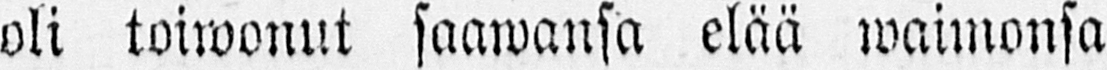oli toiwonut saawansa elää waimonsa
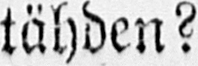tähden?
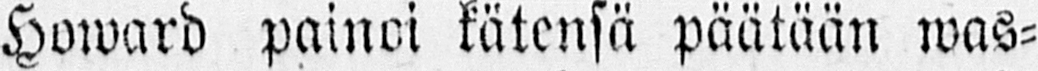Howard painoi kätensä päätään was-
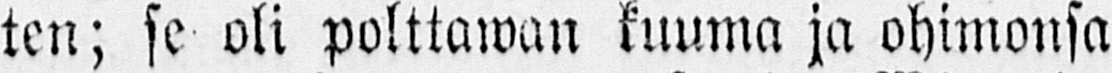ten; se oli polttawan kuuma ja ohimonsa
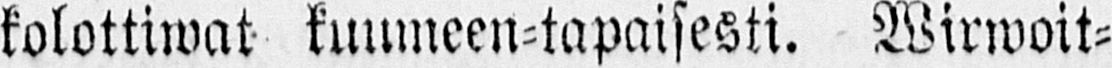kolottiwat kuumeen-tapaisesti. Wirwoit-
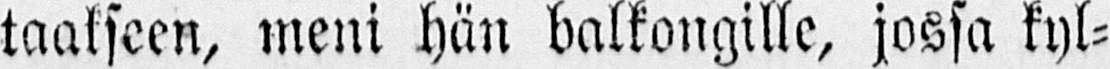taakseen, meni hän balkongille, jossa kyl-
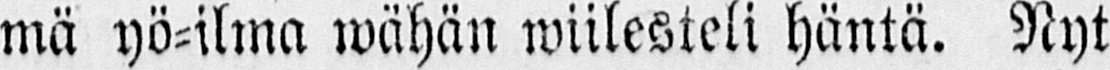mä yö-ilma wähän wiilesteli häntä. Nyt
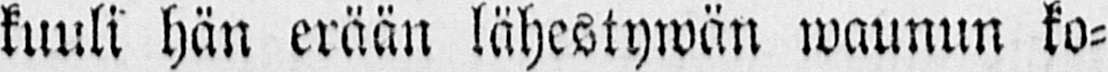kuuli hän erään lähestywän waunun ko-
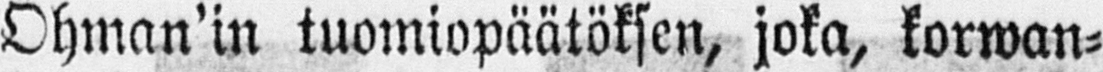Öhman'in tuomiopäätöksen, joka, korwan-
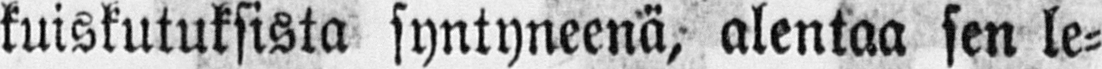kuiskutuksista syntyneenä, alentaa sen le-
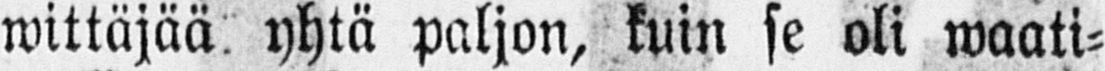wittäjää yhtä paljon, kuin se oli waati-
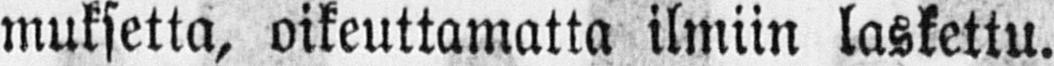muksetta, oikeuttamatta ilmiin laskettu.
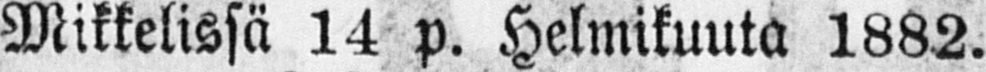Mikkelissä 14 p. Helmikuuta 1882.
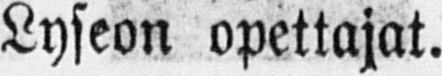Lyseon opettajat.
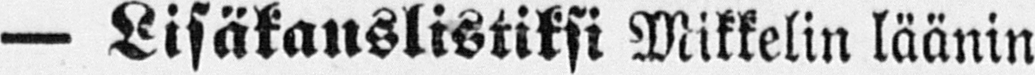— Lisäkanslistiksi Mikkelin läänin
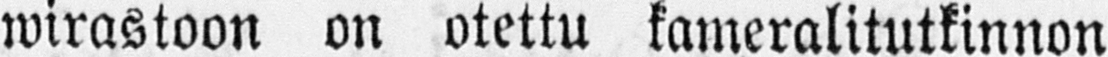wirastoon on otettu kameralitutkinnon
